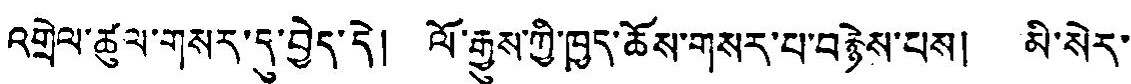འགྲེལ་ཚུལ་གསར་དུ་བྱེད་དེ། ལོ་རྒྱུས་ཀྱི་ཁྱད་ཆོས་གསར་པ་བརྙེས་པས། མི་སེར་
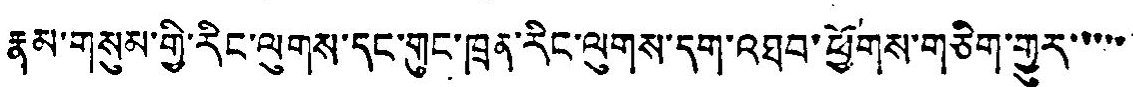རྣམ་གསུམ་གྱི་རིང་ལུགས་དང་གུང་ཁྲན་རིང་ལུགས་དག་འཐབ་ཕྱོགས་གཅིག་གྱུར་་་་་
